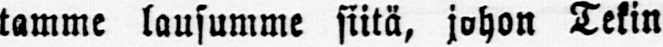tamme lausumme siitä, johon Tekin
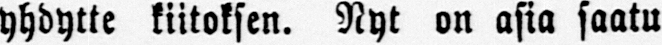yhdytte kiitoksen. Nyt on asia saatu
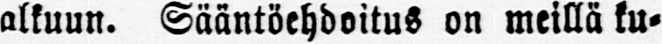alkuun. Sääntöehdoitus on meillä ku-
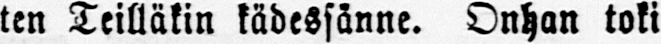ten Teilläkin kädessänne. Onhan toki
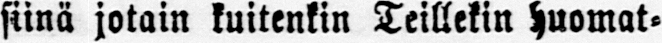siinä jotain kuitenkin Teillekin huomat-
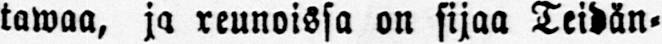tarwaa, ja reunoissa on sijaa Teidän-
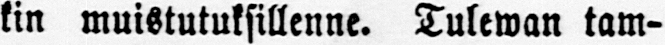kin muistutuksillenne. Tulewan tam-
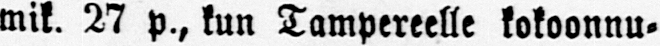mik. 27 p., kun Tampereelle kokoonnu-
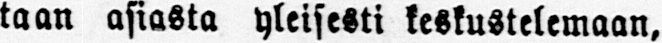taan asiasta yleisesti keskustelemaan,
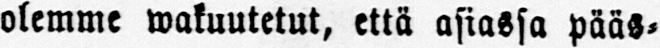olemme wakuutetut, että asiassa pääs-
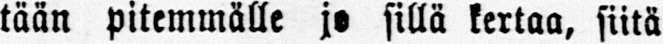tään pitemmälle jo sillä kertaa, siitä
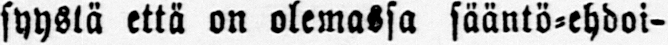syystä että on olemassa sääntö-ehdoi-
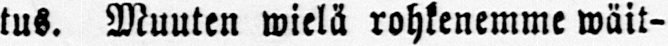tus. Muuten wielä rohkenemme wäit-
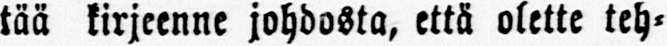tää kirjeenne johdosta, että olette teh-
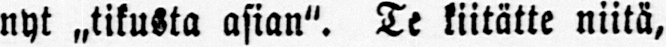nyt ˶tikusta asian". Te kiitätte niitä,
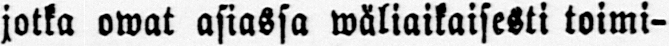jotka owat asiassa wäliaikaisesti toimi-
